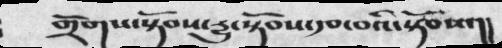གྲོགས་སྟོབས་རྱུ་སྟོབས་རྩ་བའི་སྟོབས་།།
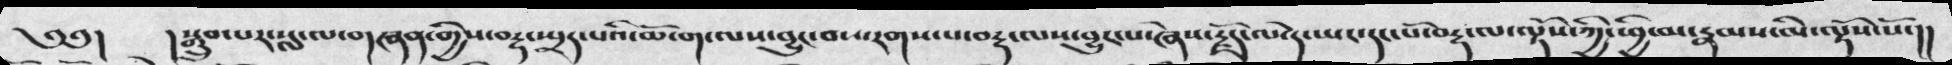༄༅།    །སྒྲུབ་པར་སླ་ལ་གཞན་གྱིས་བརྡ་སྤྲད་པའི་ཆོ་ག་ལས་བྱུང་བས་རགས་པ་བརྡ་ལས་བྱུང་པ་ཞེས་རྗོད་ལ་དེ་ཡང་དང་པོ་བརྡ་ལ་ལྟོས་ཀྱི་ཕྱི་མ་རྣམས་མི་ལྟོས་སོ་།།
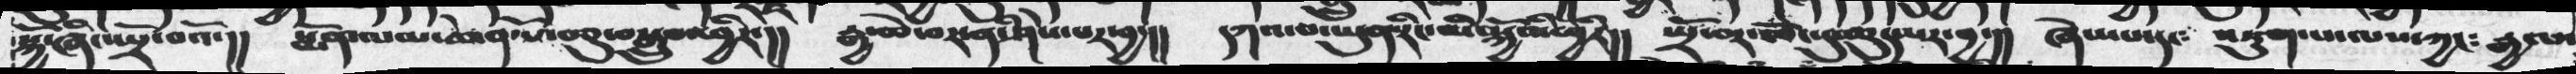སྐྱེ་ཞིང་སྤྲོ་བའོ་།།  སྨོན་ལམ་ཆེན་པོ་བཅུ་བསྒྲུབས་ཕྱིར་།།  རྒྱ་ཆེ་བར་ནི་ཤེས་པར་བྱ་།།  དཀའ་པ་ཡུན་རིང་མི་སྐྱེ་མི་ཕྱིར།།  སྤྲོ་བར་བཅོ་ཕུ་ཆུད་པར་བྱ་།།  ཞེས་པ་དང༴  འཇུག་པ་ལས་ཀྱང༴  རྒྱལ་
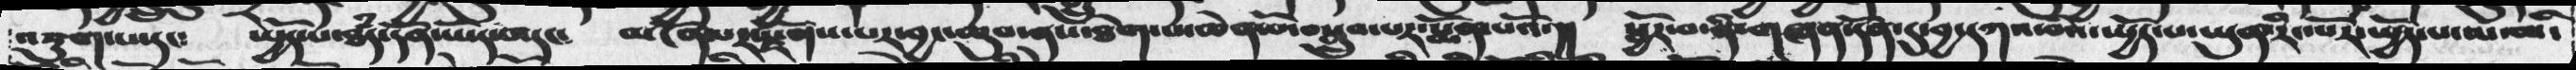འཇུག་པ་རང༴  སྤྱོད་པ་ཐཾད་དོན་ཡོད་པ་དང༴  མངོན་པར་རྫོགས་པར་བྱང་ཆུབ་ནས་ཐེག་པ་ཆེན་པོ་བསྒྲུབ་པར་སྨོན་པའོ་།།  སྦྱོར་བ་ནི་གཞན་དོན་དུ་བྱ་དཀའ་བའི་སྤྱོད་པ་ཡུན་རིང་པོར་སྤྱོད་པ་མལ་
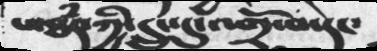པ་ཐཾད་ཀྱི་དྲུང་དུ་འགྲོ་བ་དང་
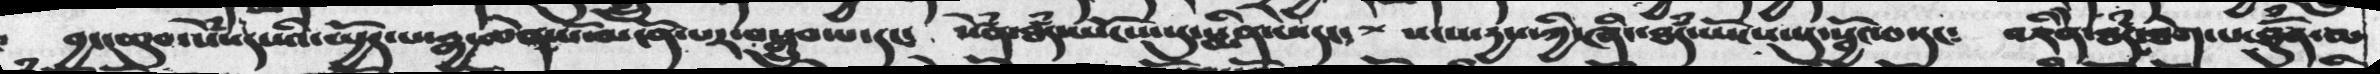བྱང་ཆུབ་སེཾས་དཔའི་སྤྱོད་པ་རྒྱ་ཆེན་པོ་མངོན་པར་བསྒྲུབ་པ་དང་  སེཾན་ཐཾད་ཡོངས་སུ་སྨིན་མདང༴  སངས་དྱས་ཀྱི་ཞིང་ཐཾད་ཡོངས་སུ་སྦྱོང་བ་དང༴  འཇིེན་ཐཾད་ཟག་པ་ཐོུན་མ
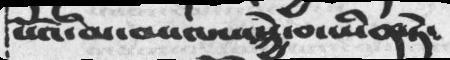པའོ་མི་མ་ལས་སྐྱེ་བ་ཡིན་ཏེ༴
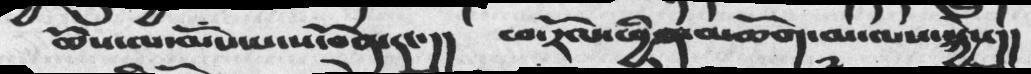ཆོས་ལ་མོས་པ་ས་བོན་དང་།།   ཕ་རོལ་ཕྱིན་མཆོག་མ་ལས་སྐྱེས།།
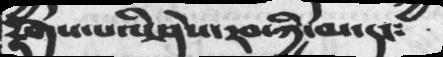རྟོགས་པའི་ཤེས་རབ་ཀྱི་མ་དང༴
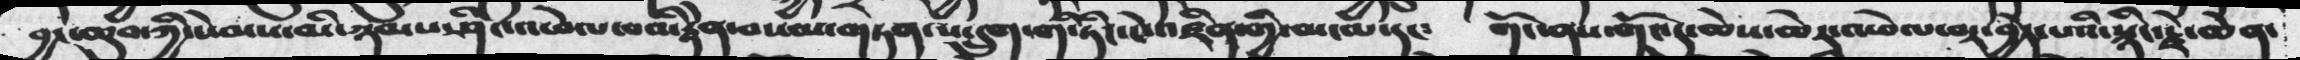བྱང་ཆུབ་ཀྱི་སེམས་མི་ཉམས་ཤིང་འཕེལ་བའི་རྟེན་བསམ་གཏན་ས་དྲུག་གི་ཏིང་ངེ་འཛིན་གྱི་མ་མ་དང༴  གོང་ནས་གོང་དུ་ཆེས་ཆེར་འཕེལ་བར་བྱེད་པའི་སྙིང་རྗེ་ཆེན་
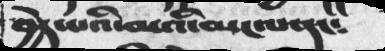བྱེད་པའི་མའི་མངལ་དུ༴
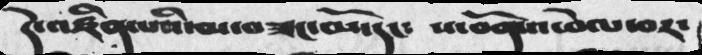དེ་འཛིན་པའི་མ་བཟང་མོ་དང༴  ས་བོན་འཕེལ་བར་
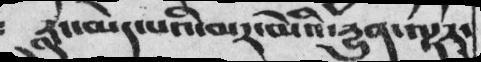རླུང་མེད་པའི་མར་མེའི་རྱུན་ལྟར་
